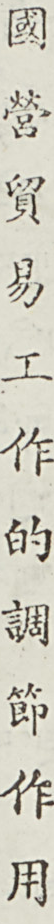國 營 貿 易 工 作 的 調 節 作 用
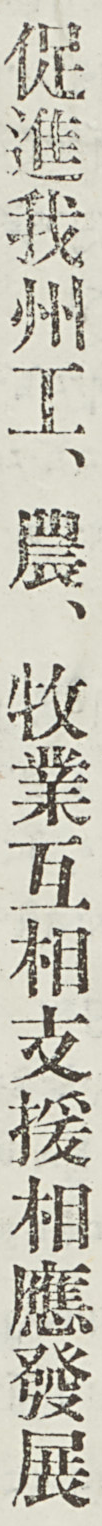促進我州工、農、牧業互相支援相應發展
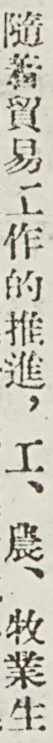隨着貿易工作的推進，工、農、牧業生
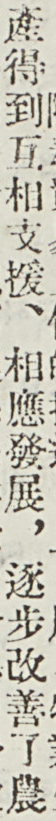產得到互相支援、相應發展，逐步改善了農
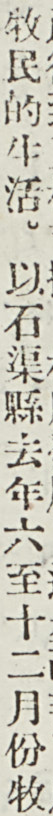牧民的生活。以石渠縣去年六至十二月份牧
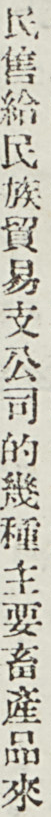民售給民族貿易支公司的幾種主要畜產品來
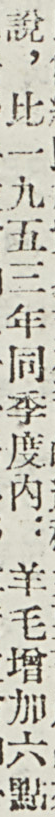說，比一九五三年同季度內：羊毛增加六點
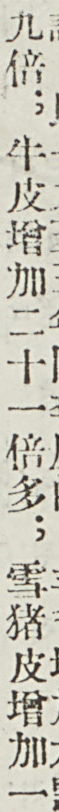九倍；牛皮增加二十一倍多；雪豬皮增加一
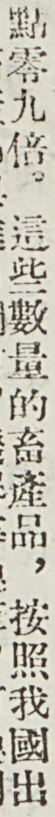點零九倍。這些數量的畜產品，按照我國出
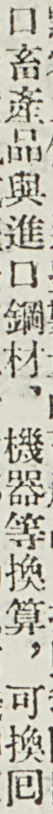口畜產品與進口鋼材、機器等換算，可換囘
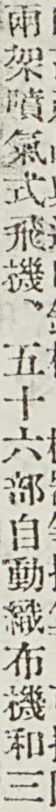兩架噴氣式飛機、五十六部自動織布機和三
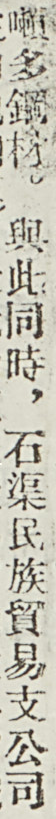噸多鋼材。與此同時，石渠民族貿易支公司
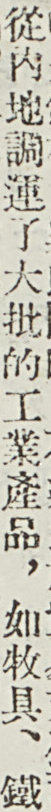從內地調運了大批的工業產品，如牧具、鐵
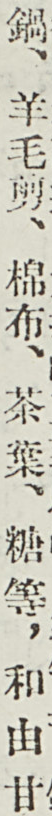鍋、羊毛剪、棉布、茶葉、糖等，和由甘
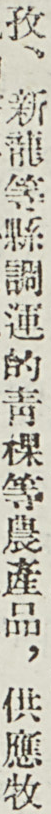孜、新龍等縣調運的靑稞等農產品，供應牧
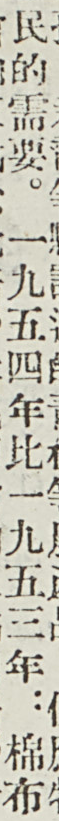民的需要。一九五四年比一九五三年：棉布
